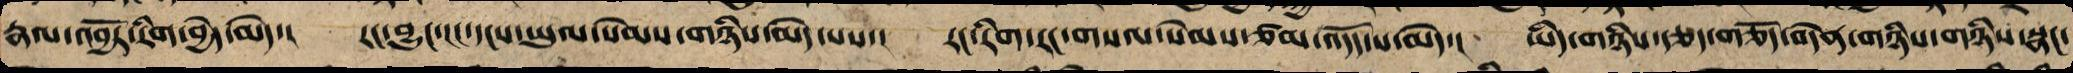རྣལ་འབྱོལ་རིག་བྱེད་མེད་། རང་བྱུང་ངང་དངས་ཡུལ་སེམས་གཉིས་མེད་པས་། རང་རིག་རང་གསལ་སེམས་ཙམ་འདོད་པ་མེད་། ཡིད་གཉིས་རྩད་གཅོད་བདེན་གཉིས་གཉིས་སྣང་
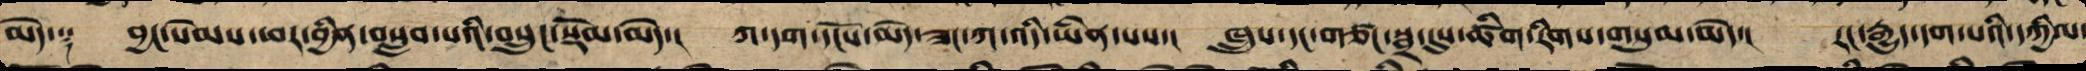མེད་༑ བྱང་སེམས་ཕར་ཕྱིན་བསླབ་པའི་བསྲུང་སྡོམ་མེད་། ཀ་དག་དངོས་མེད་ཟང་ཀ་འདི་ཡིན་པས་། ཁྲུས་དང་གཙང་སྦྲ་དུས་ཚིགས་མེད་། རང་རྒྱུད་དག་པའི་དཀྱིལ་
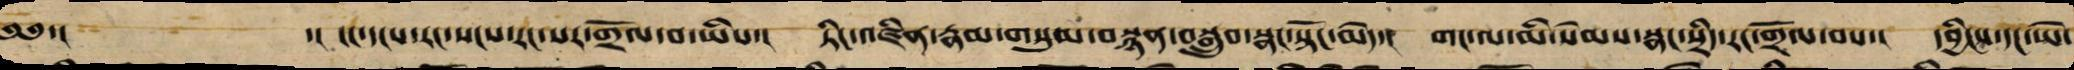༄༅་། ་། ངང་དངས་རང་སངས་རང་སར་གྲོལ་བ་ཡིས་། ཏིང་འཛིན་རྣམ་གསུམ་བསྙན་བསྒྲུབ་སྣང་སྟོང་མེད་། གང་ལ་མི་སེམས་སྣང་སྲིད་རང་གྲོལ་བས་། དབྱིངས་དང་ཡེ་
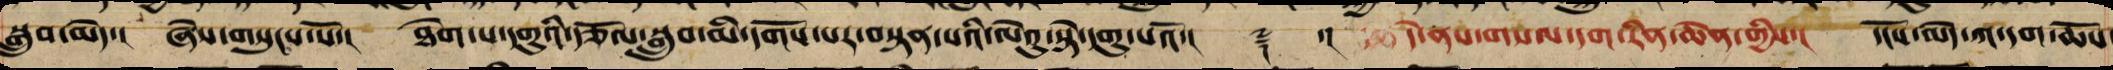སྒྲུབ་མེད་། ཞེས་གསུངས་སོ་། ཐེག་པ་དགུའི་རྩོལ་སྒྲུབ་མི་དགོས་པར་བསྟན་པའི་ལེའུ་སྟེ་དགུ་པའོ་།། ༈ ་།། དེ་ནས་གསལ་དག་རིན་ཆེན་གྱིས་། དངོས་མེད་ཀ་དག་ཆོས་
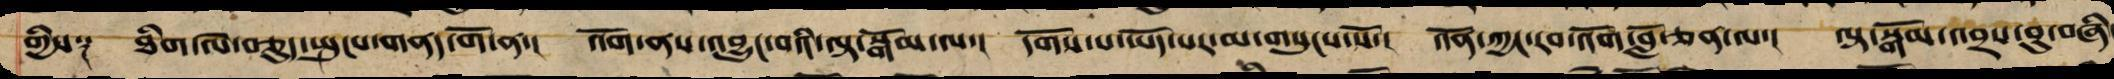གྱིས༑ ཐིག་ལེ་བཅུད་སྤུངས་གནད་གོ་ན་། འོག་ནས་འབྱུང་བའི་ལྟ་སྒོམ་ལ་། དགོས་པ་ཡོད་པར་མ་གསུངས་སོ་། འོན་ཀྱང་རབ་འོག་བློ་ཅན་ལ་། ལྟ་སྒོམ་འབྲས་བུ་བཞི
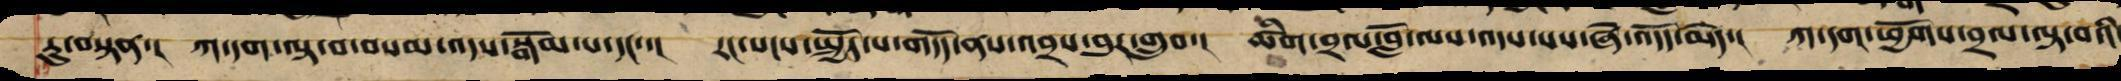རུ་བསྟན་། ཀ་དག་ལྟ་བ་བསམ་འདས་སྒོམ་པ་དང་་། རང་སངས་སྤྱོད་པ་གདོད་ནས་འབྲས་བུར་གྲུབ་། ཚིག་བྲལ་བློ་ལས་འདས་པས་ཞེ་འདོད་མེད་། ཀ་དག་ཕྱོགས་བྲལ་ལྟ་བའི
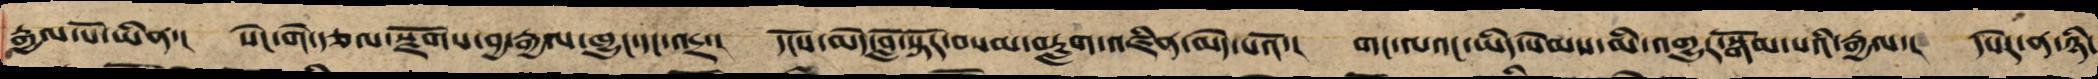རྒྱལ་པོ་ཡིན་། སེང་གེ་རྩལ་རྫོགས་བྱ་རྒྱལ་ཁྱུང་དང་འདྲ་། དངོས་མེད་བློ་སྟོར་བསམ་བརླག་འཛིན་མེད་པའོ་། གང་ལའང་ཡིད་སེམས་མི་འགྱུར་བསྒོམ་པའི་རྒྱལ་། དཔེར་ན་ཉི་
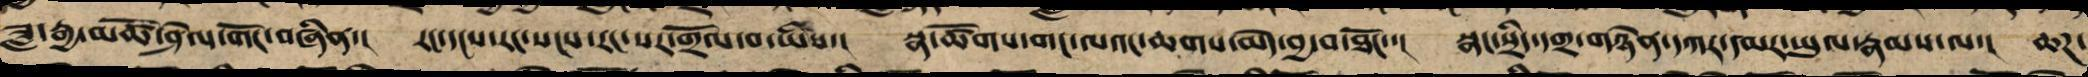ཟླ་རྒྱ་མཚོ་ཤེལ་གོང་བཞིན་། རང་དངས་རང་སངས་རང་སར་གྲོལ་བ་ཡིས་། སྣ་ཚོགས་གང་ལའང་ཆགས་མེད་བྱ་བ་ཐོང་་། སྣང་སྲིད་དགྲ་གཉེན་དཀར་དམར་ཡུལ་རྣམས་ལ་། ཆཌ་
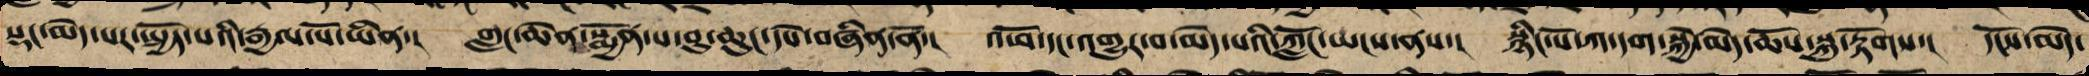སྡང་མེད་པར་སྤྱོད་པའི་རྒྱལ་པོ་ཡིན་། གླང་ཆེན་སྨྱོན་པ་བུ་ཆུང་དཔེ་བཞིན་ནོ་། འཕོ་དང་འགྱུར་བ་མེད་པའི་ཀློང་ཡངས་ནས་། སྙིང་པོ་ཀ་དག་སྐྱེ་མེད་ཆོས་སྐུ་རྟོགས་། དངོས་མེད་
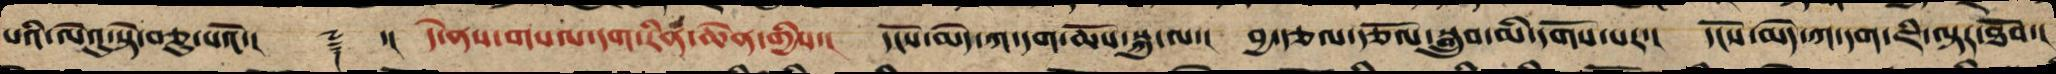པའི་ལེའུ་སྟེ་བཅུ་པའོ།་། ༈ ་།། དེ་ནས་གསལ་དག་རིན་ཆེན་གྱིས་། དངོས་མེད་ཀ་དག་ཆོས་སྐུ་ལ་། བྱ་རྩལ་རྩོལ་སྒྲུབ་མི་དགོས་པར་། དངོས་མེད་ཀ་དག་ཇི་ལྟར་ཐོབ་།
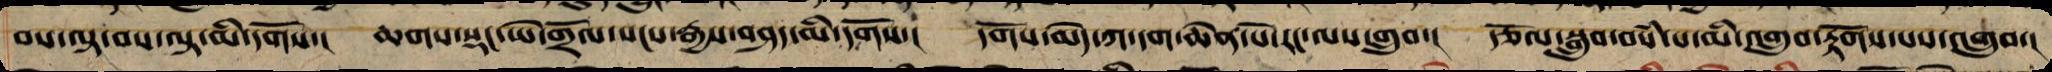བས་ལྟ་བས་བལྟ་མི་དགོས་། ཆགས་སྡང་ཡེ་གྲོལ་སངས་རྒྱས་བཤད་མི་དགོས་། དགོས་མེད་ཀ་དག་ཆེན་པོ་རང་ལས་གྲུབ་། རྩོལ་བསྒྲུབ་བསཾ་པས་མི་འགྲུབ་རྟོགས་པས་འགྲུབ་།
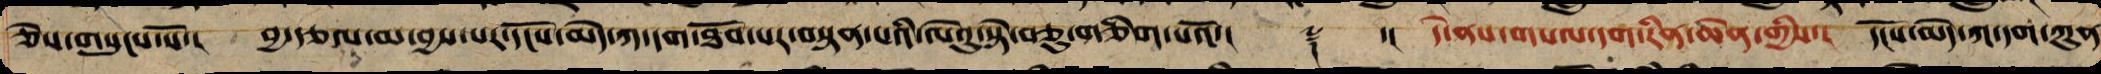ཅེས་གསུངས་སོ་། བྱ་རྩལ་མ་བྱས་པར་དངོས་མེད་ཀ་དག་ཐོབ་པར་བསྟན་པའི་ལེའུ་སྟེ་བཅུ་གཅིག་པའོ་།། ༈ ་། དེ་ནས་གསལ་དག་རིན་ཆེན་གྱིས་། དངོས་མེད་ཀ་དག་ཀུན
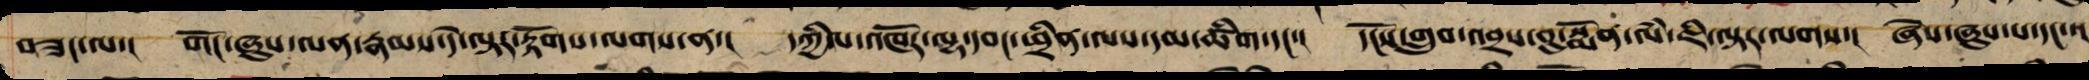བཟང་ལ་། གོང་ཞུས་ལན་རྣམས་དེ་ལྟར་རྟོགས་ལགས་ན་། དཀྱིལ་འཁོར་ལྷ་དབང་ཕྲིན་ལས་དམ་ཚིག་དང་། དངོས་གྲུབ་འབྲས་བུ་སྨོན་ལཾ་ཇི་ལྟར་ལགས་། ཞེས་ཞུས་པ་དང་་།
